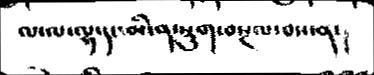ལ་ལ་ལྷ་དང་མི་ན་སྡུག་བསྔལ་བས་ན་།
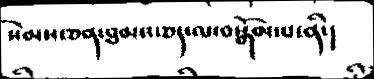སེམས་ཅན་ཐམས་ཅད་ལ་བསྒོམ་པ་ནི་།
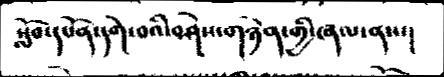སློབ་དཔོན་དགེ་བའི་བཤེས་གཉེན་གྱི་ཞལ་ནས་།
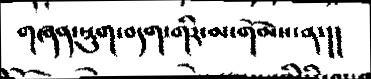གཞན་སྡུག་བདག་གིར་མ་གོམས་ན་།།
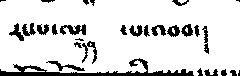རང་པ་ལ་   ་པ་འབབ་།
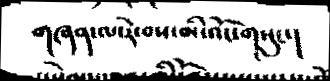གཞན་ལ་རེ་བས་མི་འོང་གསུང་།
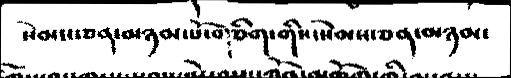སེམས་ཅན་མཉམ་པོ་གཅིག་གིས་སེམས་ཅན་མཉམ་
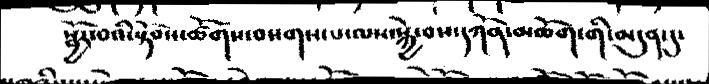སྦྱོར་བའི་སྟོབས་ཚོགས་བསགས་པ་ལས་སྐྱེ་བས་དཀོན་མཆོག་གི་མདུན་དུ་
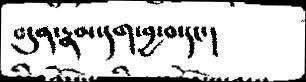བདུན་རྣམ་དག་བྱ་བ་དང་།
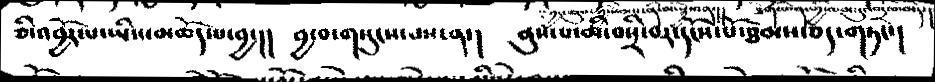ཅི་འབྱོར་པ་ཡིས་མཆོད་པ་བྱ་།།  བྱ་བ་གསུངས་པས་ན་།  ནུས་པ་ཆི་བསྲི་བར་དངོས་པོ་ཐམས་ཅད་གཏང་།
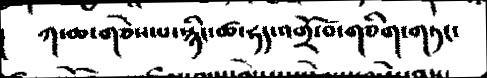ཀ་ཆ་གཅེས་པ་སྙིང་ཚ་ཧད་འགྲོ་བ་གཅིག་གཏང་
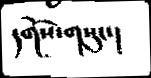དགོས་གསུང་།
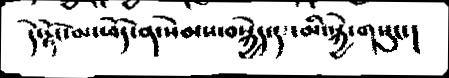དེ་རྟོང་མ་ཕོད་ན་སེམས་བསྐྱེད་དང་མི་སྐྱེ་གསུང་།
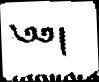༄༅།
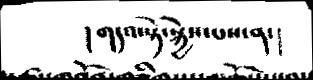།གདའ་སྟེ་སྐྱེས་པས་ན་།
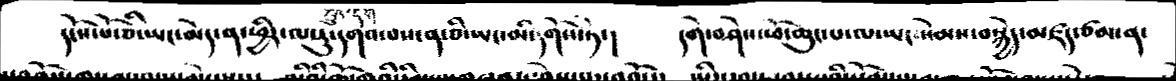དངོས་པོ་ཅི་ཡང་མེད་ན་ཕྱིར་ལསུ་དགའ་པས་ན་ཅི་ཡང་མི་དགོས་ཏེ་།   དགེ་བཤེས་ཕོ་ཆུང་པ་ལ་ཡང་སེམས་བསྐྱེད་མཛད་ཙམ་ན་
